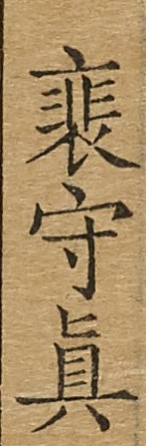裴守真
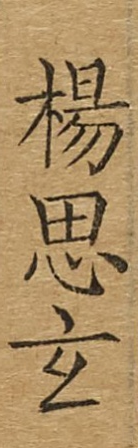楊思玄
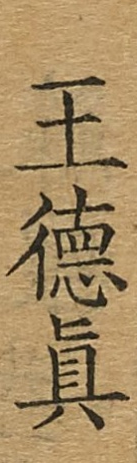王德真
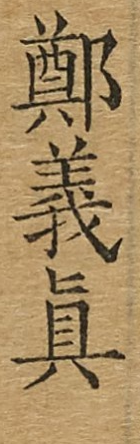鄭義真
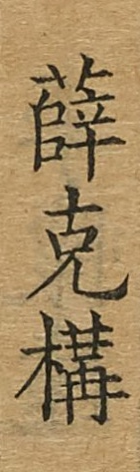薛克構
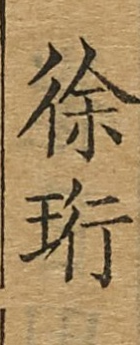徐珩
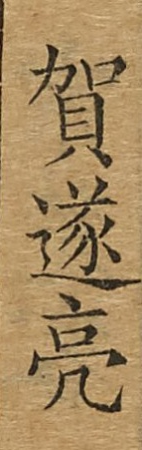賀遂亮
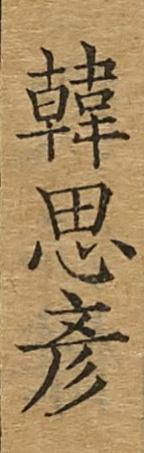韓思彥
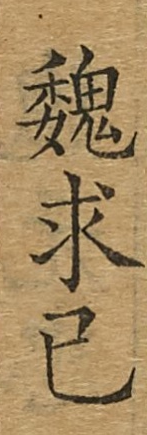魏求己
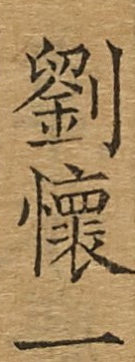劉懷一
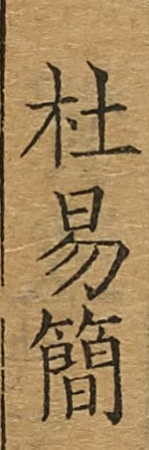杜易簡
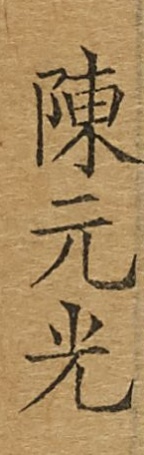陳元光
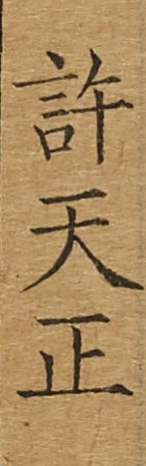許天正
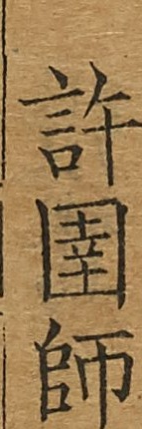許圉師
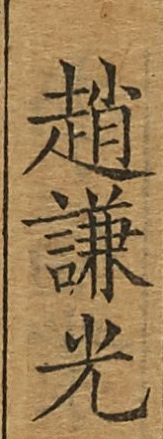趙謙光
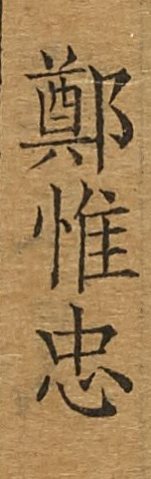鄭惟忠
